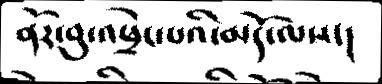ནོར་བུ་འཕྲེང་པའི་མདོ་ལས་།
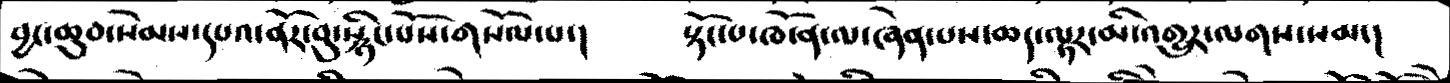བྱང་ཆུབ་སེམས་དཔའ་ནོར་བུ་སྙིང་པོས་གསོལ་པ་།    སྟོང་པ་ཁོ་ན་ལ་ཞེན་པས་ཆད་ལྟར་མི་འགྱུར་ལགས་སམ་།
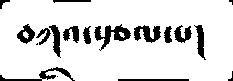བཀའ་སྩལ་པ།
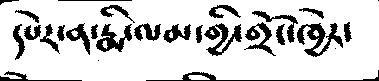དཔེར་ན་རྨི་ལམ་གྱི་གྲོང་ཁྱེར་
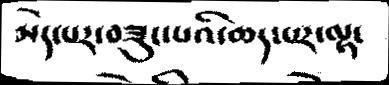མེད་པར་བཟུང་པའི་ཆད་པར་ལྟ་
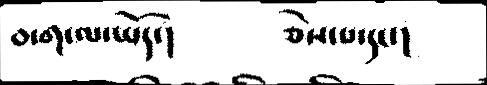བ་ག་ལ་ཡོད་།     ཅེས་པ་དང་།
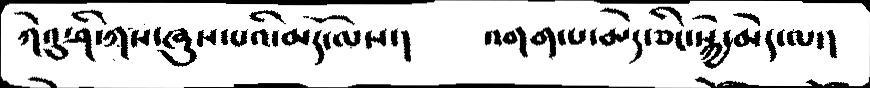ཀེའུ་ཤི་ཀས་ཞུས་པའི་མདོ་ལས་།   འགག་པ་མེད་ཅིང་སྐྱེ་མེད་ལ་།
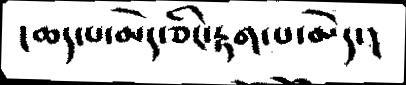།ཆད་པ་མེད་ཅིང་རྟག་པ་མེད་།
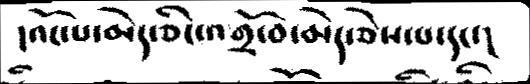།འོང་པ་མེད་ཅིང་འགྲོ་བ་མེད་ཅེས་པ་དང་།
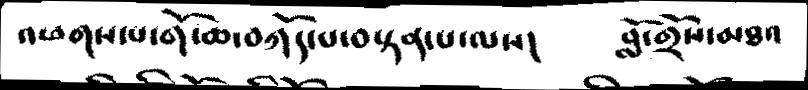འཕགས་པ་གོ་ཆ་བཀོད་པ་བསྟན་པ་ལས།    བློ་གྲོས་མཐའ
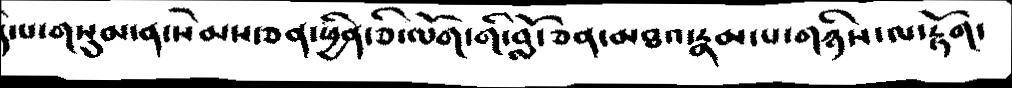ད་པ་གསུམ་ན་སེམས་ཅན་ཕྱིན་ཅི་ལོག་གི་བློ་ཅན་མཐའ་རྣམ་པ་གཉིས་ལ་རྟོག་
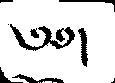༄༅།
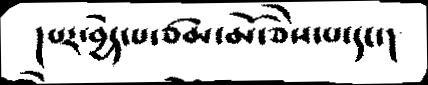།པར་བྱེད་པ་ཙམ་མོ་ཅེས་པ་དང་།
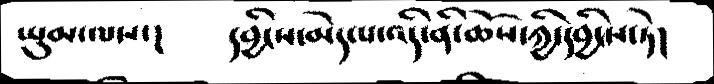ཡུམ་ལས་།   དབྱིངས་མེད་པ་འདི་ནི་ཆོས་ཀྱི་དབྱིངས་ཏེ།
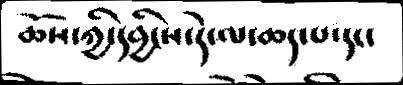ཆོས་ཀྱི་དབྱིངས་དེ་ལ་ཆད་པ་དང་
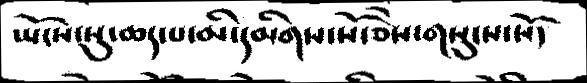ཡོངས་སུ་ཆད་པ་མི་དམིགས་སོ་ཅེས་གསུངས་སོ།
